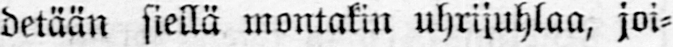detään siellä montakin uhrijuhlaa, joi-
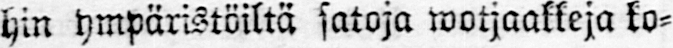hin ympäristöiltä satoja wotjaakkeja ko-
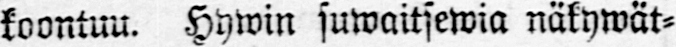koontuu. Hywin suwaitsewia näkywät-
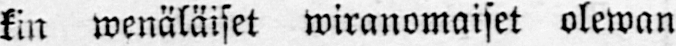kin wenäläiset wiranomaiset olewan
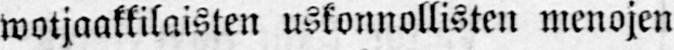wotjaakkilaisten uskonnollisten menojen
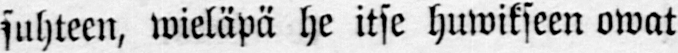suhteen, wieläpä he itse huwikseen owat
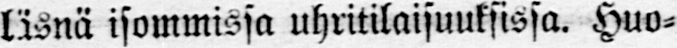läsnä isommissa uhritilaisuuksissa. Huo-
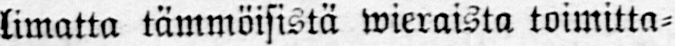limatta tämmöisistä wieraista toimitta-
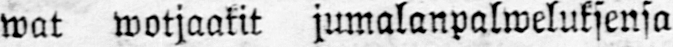wat wotjaakit jumalanpalweluksensa
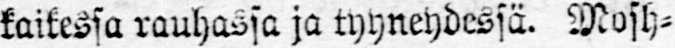kaikessa rauhassa ja tyyneydessä. Mosh-
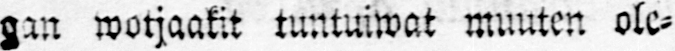gan wotjaakit tuntuiwat muuten ole-
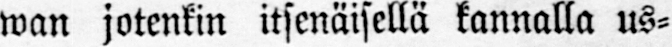wan jotenkin itsenäisellä kannalla us-
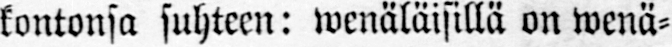kontonsa suhteen: wenäläisillä on wenä-
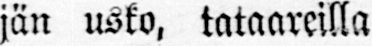jän usko, tataareilla tataarinasko ja
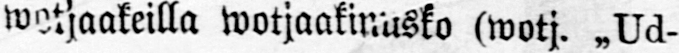wotjaakeilla wotjaakinusko (wotj. „Ud-
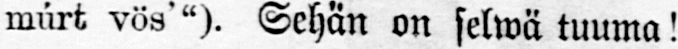múrt. vös’"). Sehän on selwä tuuma!
